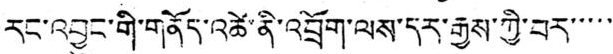རང་འབྱུང་གི་གནོད་འཚེ་ནི་འབྲོག་ལས་དར་རྒྱས་ཀྱི་བར་་་་་
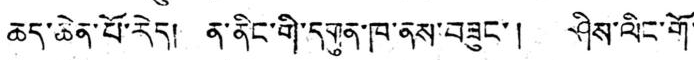ཆད་ཆེན་པོ་རེད། ན་ནིང་གི་དགུན་ཁ་ནས་བཟུང་། ཤིས་ལིང་གོ་
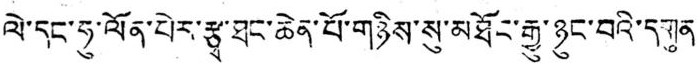ལེ་དང་ཧུ་ལོན་པེར་རྩྭ་ཐང་ཆེན་པོ་གཉིས་སུ་མཐོང་རྒྱུ་ཉུང་བའི་དགུན
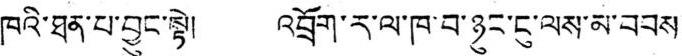ཁའི་ཐན་པ་བྱུང་སྟེ། འབྲོག་ར་ལ་ཁ་བ་ཉུང་ངུ་ལས་མ་བབས་
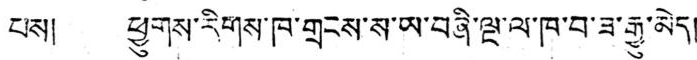པས། ཕྱུགས་རིགས་ཁ་གྲངས་ས་ཡ་བཞི་ལྔ་ལ་ཁ་བ་ཟ་རྒྱུ་མེད།
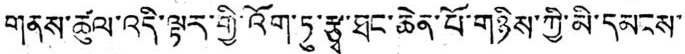གནས་ཚུལ་འདི་ལྟར་གྱི་འོག་ཏུ་རྩྭ་ཐང་ཆེན་པོ་གཉིས་ཀྱི་མི་དམངས་་
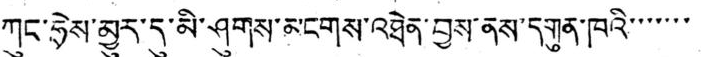ཀུང་ཧྲེས་མྱུར་དུ་མི་ཤུགས་མངགས་འཐེན་བྱས་ནས་དགུན་ཁའི་་་་་་་
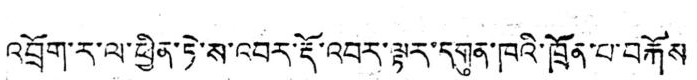འབྲོག་ར་ལ་ཕྱིན་ཏེ་ས་འབར་རྡོ་འབར་ལྟར་དགུན་ཁའི་ཁྲོན་པ་བརྐོས
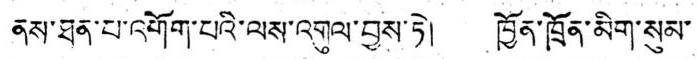ནས་ཐན་པ་འགོག་པའི་ལས་འགུལ་བྱས་ཏེ། ཁྱོན་ཁྲོན་མིག་སུམ་
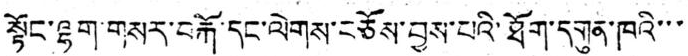སྟོང་ལྷག་གསར་བརྐོ་དང་ལེགས་བཅོས་བྱས་པའི་ཐོག་དགུན་ཁའི་་་
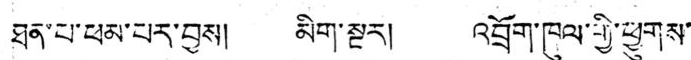ཐན་པ་ཕམ་པར་བྱས། མིག་སྔར། འབྲོག་ཁུལ་གྱི་ཕྱུགས་
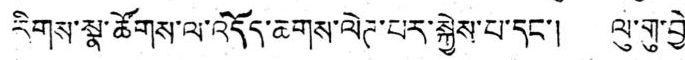རིགས་སྣ་ཚོགས་འདོད་ཆགས་ལེཊ་པར་སྐྱས་པ་དང་། ལུ་གུ་བྱེ་
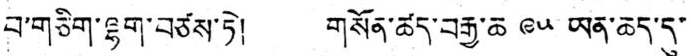བ་གཅིག་ལྷག་བཙས་ཏེ། གསོན་ཚད་བརྒྱ་ཆ ༩༥ ཡན་ཆད་དུ་
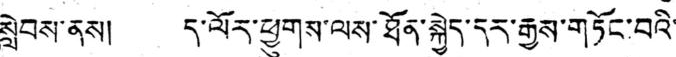སླེབས་ནས། ད་ལོར་ཕྱུགས་ལས་ཐོན་སྐྱེད་དར་རྒྱས་གཏོང་བའི་
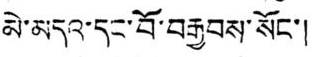མེ་མདའ་དང་བོ་བརྒྱབས་སོང་།
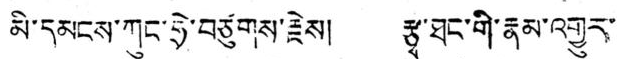མི་དམངས་ཀུང་ཧྲེ་བཙུགས་རྗེས། རྩྭ་ཐང་གི་རྣམ་འགྱུར་
